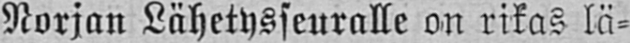Norjan Lähetysseuralle on rikas lä-
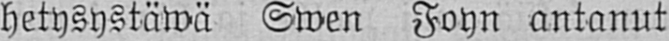hetysystäwä Swen Foyn antanut
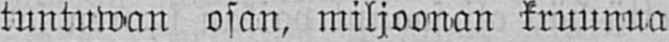tuntuwan osan, miljoonan kruunua
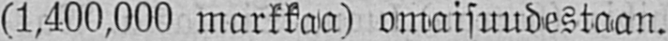(1,400,000 markkaa) omaisuudestaan.
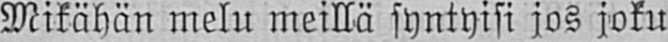Mikähän melu meillä syntyisi jos joku
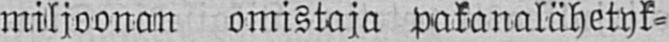miljoonan omistaja pakanalähetyk-
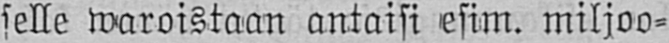selle waroistaan antaisi esim. miljoo-
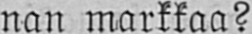nan markkaa?
